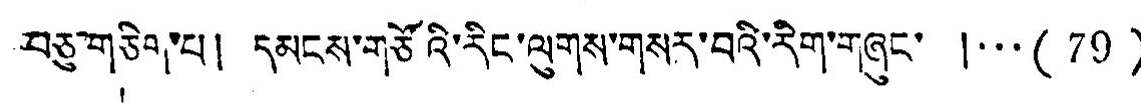བཅུ་གཅིག་པ། དམངས་གཙོའི་རིང་ལུགས་གསར་བའི་རིག་གཞུང་ །...（79）
